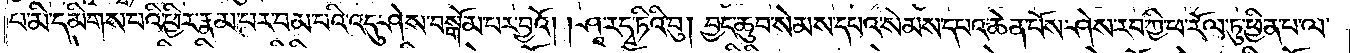པ་མི་དམིགས་པའི་ཕྱིར་རྣམ་པར་བམ་པའི་འདུ་ཤེས་བསྒོམ་པར་བྱའོ། །ཤཱ་ར་དྭ་ཏིའི་བུ། བྱང་ཆུབ་སེམས་དཔའ་སེམས་དཔའ་ཆེན་པོས་ཤེས་རབ་ཀྱི་ཕ་རོལ་ཏུ་ཕྱིན་པ་ལ་
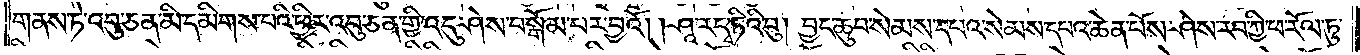གནས་ཏེ་འབུ་ཅན་མི་དམིགས་པའི་ཕྱིར་འབུ་ཅན་གྱི་འདུ་ཤེས་བསྒོམ་པར་བྱའོ། །ཤཱ་ར་དྭ་ཏིའི་བུ། བྱང་ཆུབ་སེམས་དཔའ་སེམས་དཔའ་ཆེན་པོས་ཤེས་རབ་ཀྱི་ཕ་རོལ་ཏུ་
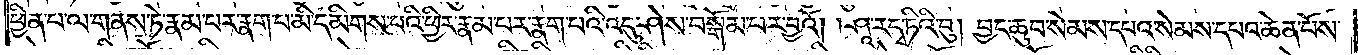ཕྱིན་པ་ལ་གནས་ཏེ་རྣམ་པར་རྣག་པ་མི་དམིགས་བའི་ཕྱིར་རྣམ་པར་རྣག་པའི་འདུ་ཤེས་བསྒོམ་པར་བྱའོ། །ཤཱ་ར་དྭ་ཏིའི་བུ། བྱང་ཆུབ་སེམས་དཔའ་སེམས་དཔའ་ཆེན་པོས་
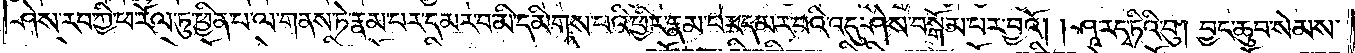ཤེས་རབ་ཀྱི་ཕ་རོལ་ཏུ་ཕྱིན་པ་ལ་གནས་ཏེ་རྣམ་པར་དམར་བ་མི་དམིགས་པའི་ཕྱིར་རྣམ་པར་དམར་བའི་འདུ་ཤེས་བསྒོམ་པར་བྱའོ། །ཤཱ་ར་དྭ་ཏིའི་བུ། བྱང་ཆུབ་སེམས་
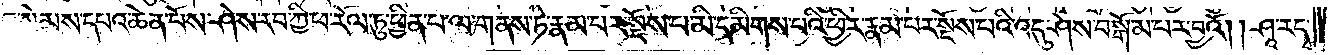འ་སེམས་དཔའ་ཆེན་པོས་ཤེས་རབ་ཀྱི་ཕ་རོལ་ཏུ་ཕྱིན་པ་ལ་གནས་ཏེ་རྣམ་པར་སྔོས་པ་མི་དམིགས་པའི་ཕྱིར་རྣམ་པར་སྔོས་པའི་འདུ་ཤེས་བསྒོམ་པར་བྱའོ། །ཤཱ་ར་དྭ་
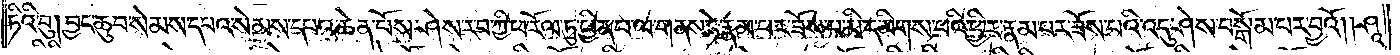ཏིའི་བུ། བྱང་ཆུབ་སེམས་དཔའ་སེམས་དཔའ་ཆེན་པོས་ཤེས་རབ་ཀྱི་ཕ་རོལ་ཏུ་ཕྱིན་པ་ལ་གནས་ཏེ་རྣམ་པར་ཟོས་པ་མི་དམིགས་པའི་ཕྱིར་རྣམ་པར་ཟོས་པའི་འདུ་ཤེས་བསྒོམ་པར་བྱའོ། །ཤཱ་
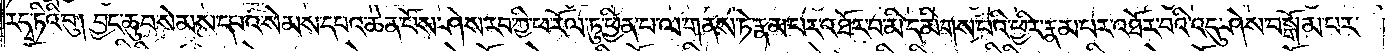ར་དྭ་ཏིའི་བུ། བྱང་ཆུབ་སེམས་དཔའ་སེམས་དཔའ་ཆེན་པོས་ཤེས་རབ་ཀྱི་ཕ་རོལ་ཏུ་ཕྱིན་པ་ལ་གནས་ཏེ་རྣམ་པར་འཐོར་བ་མི་དམིགས་པའི་ཕྱིར་རྣམ་པར་འཐོར་བའི་འདུ་ཤེས་བསྒོམ་པར་
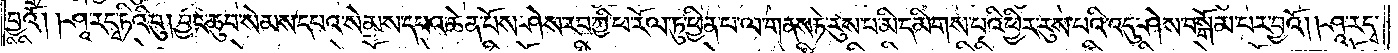བྱའོ། །ཤཱ་ར་དྭ་ཏིའི་བུ། བྱང་ཆུབ་སེམས་དཔའ་སེམས་དཔའ་ཆེན་པོས་ཤེས་རབ་ཀྱི་ཕ་རོལ་ཏུ་ཕྱིན་པ་ལ་གནས་ཏེ་རུས་པ་མི་དམིགས་པའི་ཕྱིར་རུས་པའི་འདུ་ཤེས་བསྒོམ་པར་བྱའོ། །ཤཱ་ར་དྭ་
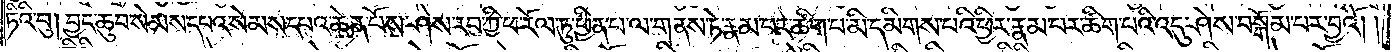ཏིའི་བུ། བྱང་ཆུབ་སེམས་དཔའ་སེམས་དཔའ་ཆེན་པོས་ཤེས་རབ་ཀྱི་ཕ་རོལ་ཏུ་ཕྱིན་པ་ལ་གནས་ཏེ་རྣམ་པར་ཚིག་པ་མི་དམིགས་པའི་ཕྱིར་རྣམ་པར་ཚིག་པའི་འདུ་ཤེས་བསྒོམ་པར་བྱའོ༎
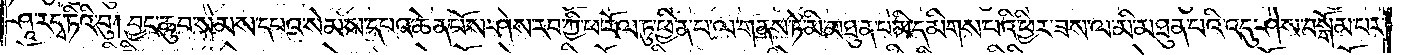ཤཱ་ར་དྭ་ཏིའི་བུ། བྱང་ཆུབ་སེམས་དཔའ་སེམས་དཔའ་ཆེན་པོས་ཤེས་རབ་ཀྱི་ཕ་རོལ་ཏུ་ཕྱིན་པ་ལ་གནས་ཏེ་མི་མཐུན་པ་མི་དམིགས་པའི་ཕྱིར་ཟས་ལ་མི་མཐུན་པའི་འདུ་ཤེས་བསྒོམ་པར་
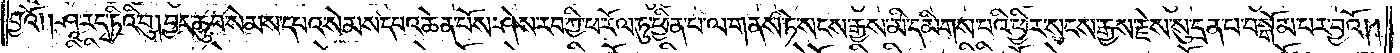བྱའོ། །ཤཱ་ར་དྭ་ཏིའི་བུ། བྱང་ཆུབ་སེམས་དཔའ་སེམས་དཔའ་ཆེན་པོས་ཤེས་རབ་ཀྱི་ཕ་རོལ་ཏུ་ཕྱིན་པ་ལ་གནས་ཏེ་སངས་རྒྱས་མི་དམིགས་པའི་ཕྱིར་སངས་རྒྱས་རྗེས་སུ་དྲན་པ་བསྒོམ་པར་བྱའོ། །
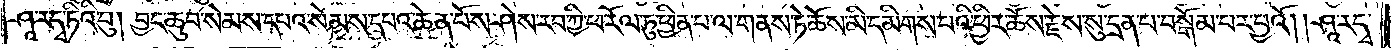ཤཱ་ར་དྭ་ཏིའི་བུ། བྱང་ཆུབ་སེམས་དཔའ་སེམས་དཔའ་ཆེན་པོས་ཤེས་རབ་ཀྱི་ཕ་རོལ་ཏུ་ཕྱིན་པ་ལ་གནས་ཏེ་ཆོས་མི་དམིགས་པའི་ཕྱིར་ཆོས་རྗེས་སུ་དྲན་པ་བསྒོམ་པར་བྱའོ། །ཤཱ་ར་དྭ་
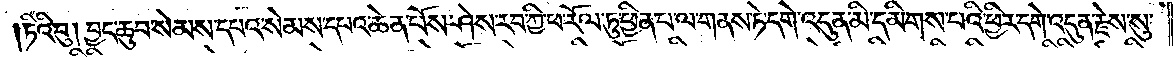ཏིའི་བུ། བྱང་ཆུབ་སེམས་དཔའ་སེམས་དཔའ་ཆེན་པོས་ཤེས་རབ་ཀྱི་ཕ་རོལ་ཏུ་ཕྱིན་པ་ལ་གནས་ཏེ་དགེ་འདུན་མི་དམིགས་པའི་ཕྱིར་དགེ་འདུན་རྗེས་སུ་
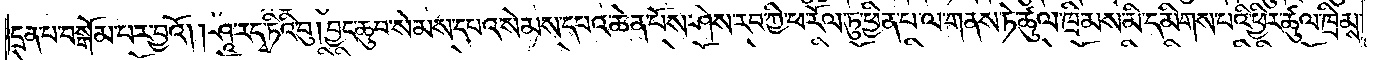དྲན་པ་བསྒོམ་པར་བྱའོ། །ཤཱ་ར་དྭ་ཏིའི་བུ། བྱང་ཆུབ་སེམས་དཔའ་སེམས་དཔའ་ཆེན་པོས་ཤེས་རབ་ཀྱི་ཕ་རོལ་ཏུ་ཕྱིན་པ་ལ་གནས་ཏེ་ཚུལ་ཁྲིམས་མི་དམིགས་པའི་ཕྱིར་ཚུལ་ཁྲིམས་
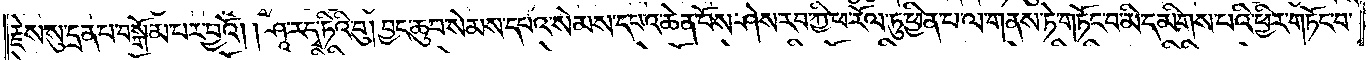རྗེས་སུ་དྲན་པ་བསྒོམ་པར་བྱའོ། །ཤཱ་ར་དྭ་ཏིའི་བུ། བྱང་ཆུབ་སེམས་དཔའ་སེམས་དཔའ་ཆེན་པོས་ཤེས་རབ་ཀྱི་ཕ་རོལ་ཏུ་ཕྱིན་པ་ལ་གནས་ཏེ་གཏོང་བ་མི་དམིགས་པའི་ཕྱིར་གཏོང་བ་
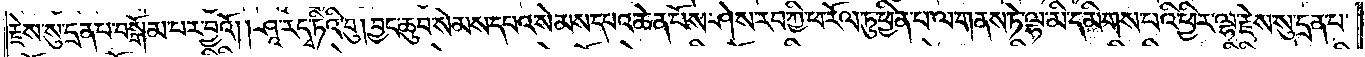རྗེས་སུ་དྲན་པ་བསྒོམ་པར་བྱའོ། །ཤཱ་ར་དྭ་ཏིའི་བུ། བྱང་ཆུབ་སེམས་དཔའ་སེམས་དཔའ་ཆེན་པོས་ཤེས་རབ་ཀྱི་ཕ་རོལ་ཏུ་ཕྱིན་པ་ལ་གནས་ཏེ་ལྷ་མི་དམིགས་པའི་ཕྱིར་ལྷ་རྗེས་སུ་དྲན་པ་
